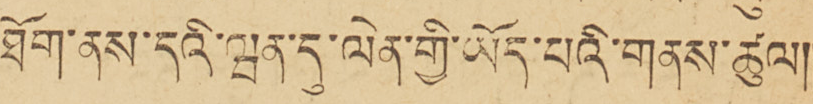ཐོག་ནས་དའི་ཝན་དུ་ལེན་གྱི་ཡོད་པའི་གནས་ཚུལ།།
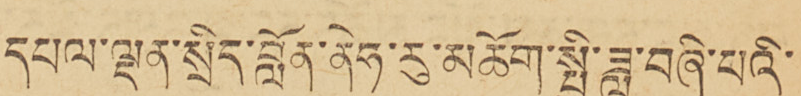དཔལ་ལྡན་སྲིད་བློན་ནེཧ་རུ་མཆོག་སྤྱི་ཟླ་བཞི་པའི་
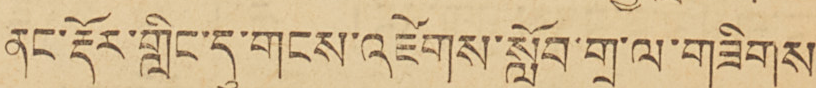ནང་རྡོར་གླིང་དུ་གངས་འཛེགས་སློབ་གྲྭ་ལ་གཟིགས་
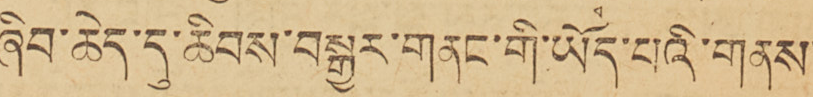ཞིབ་ཆེད་དུ་ཆིབས་བསྒྱུར་གནང་གི་ཡོད་པའི་གནས་
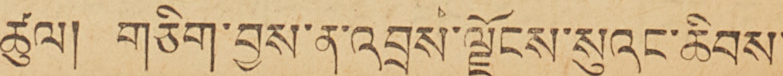ཚུལ། གཅིག་བྱས་ན་འབྲས་ལྗོངས་སུའང་ཆིབས་
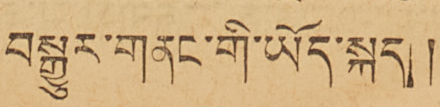བསྒྱུར་གནང་གི་ཡོད་སྐད།།
